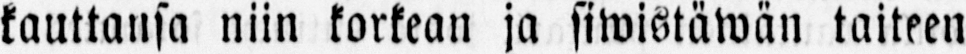kauttansa niin korkean ja siwistäwän taiteen
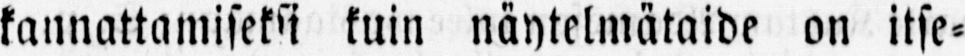kannattamiseksi kuin näytelmätaide on itse-
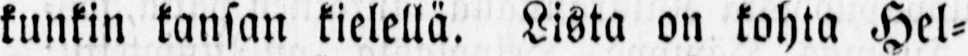kunkin kansan kielellä. Lista on kohta Hel-
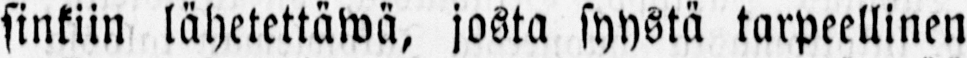sinkiin lähetettäwä, josta syystä tarpeellinen
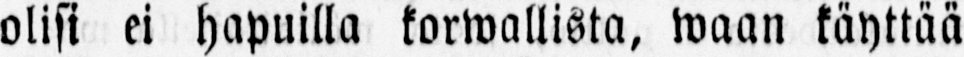olisi ei hapuilla korwallista, waan käyttää
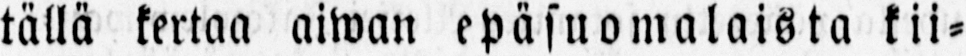tällä kertaa aiwan epäsuomalaista kii-
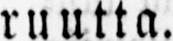ruutta.
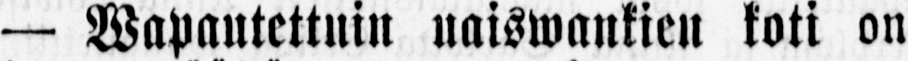— Wapautettuin uaiswankien koti on
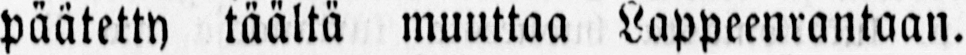päätetty täältä muuttaa Lappeenrantaan.
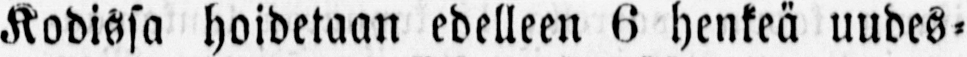Kodissa hoidetaan edelleen 6 henkeä uudes-
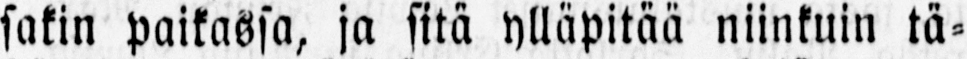sakin paikassa, ja sitä ylläpitää niinkuin tä-
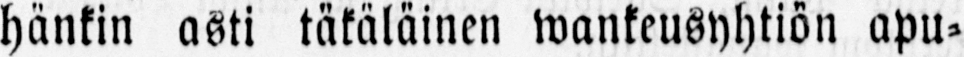hänkin asti täkäläinen wankeusyhtiön apu-
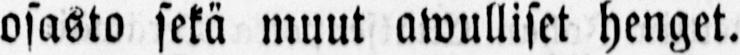osasto sekä muut awulliset henget.
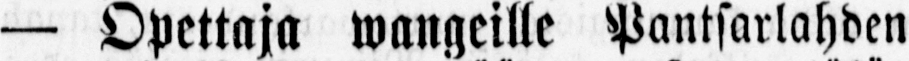— Opettaja wangeille Pantsarlahden
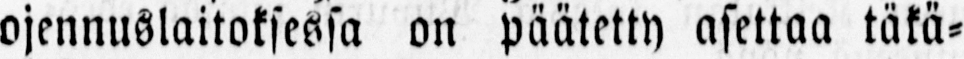ojennuslaitoksessa on päätetty asettaa täkä-
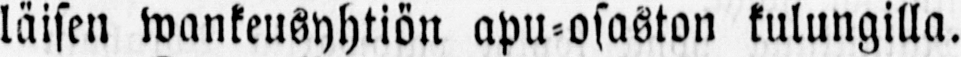läisen wankeusyhtiön apu-osaston kulungilla.
